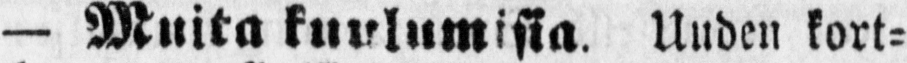— Muita kuulumisia Uuden kort-
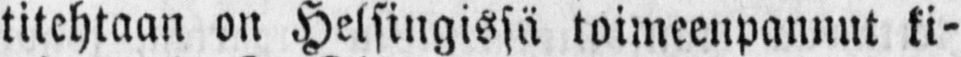titehtaan on Helsingissä toimeenpannut ki-
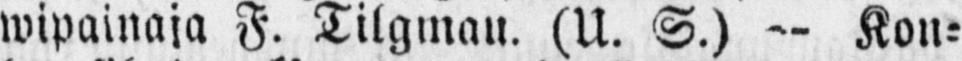wipainaja F. Tilgmau. (U. S.) — Kon-
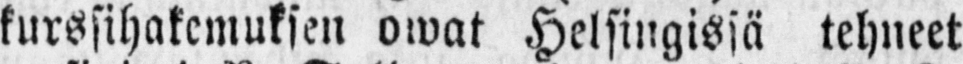kurssihakemuksen owat Helsingissä tehneet
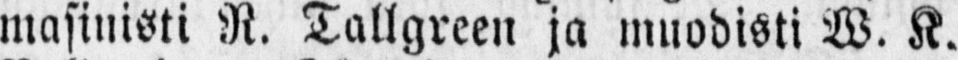masinisti N. Tallgreen ja muodisti W. K.
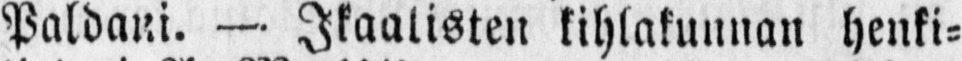Paldani. — Ikaalisten kihlakunnan henki-
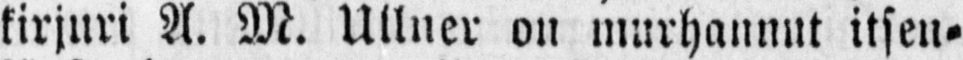kirjan A. M. Ullner on murhannut itsen-
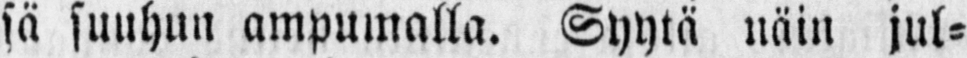sä suuhun ampumalla. Syytä näin jul-
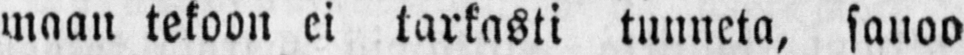maan tekoon ei tarkasti tunneta, sanoo
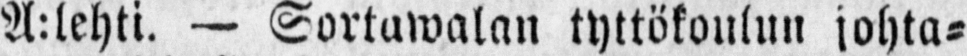A:lehti. — Sortawalan tyttökoulun johta-
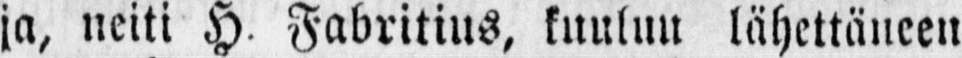ja, neiti H. Fabritius, kuuluu lähettäneen
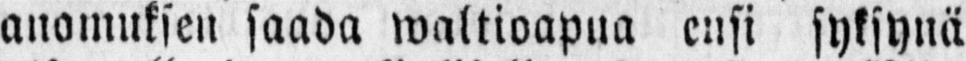anomuksen saada »valtioapua ensi syksynä
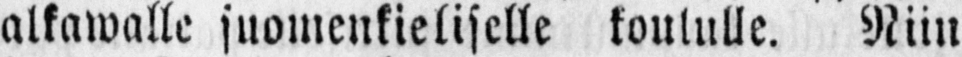alkawalle suomenkieliselle koululle. Niin
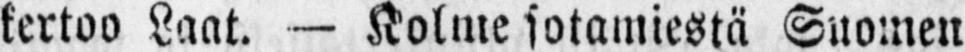kertoo Laat. — Kolme sotamiestä Suomen
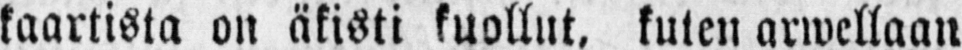kaartista on äkisti kuollut, kuten arwellaan
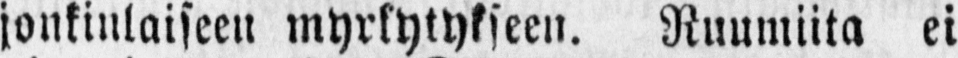jonkinlaiseen myrkytykseen. Ruumiita ei
